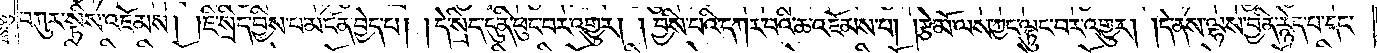བཀུར་སྟིས་འཇོམས། །ཇི་སྲིད་བྱིས་པ་མངོན་བྱེད་པ། །དེ་སྲིད་དུ་ནི་ཕུང་བར་འགྱུར། །བྱིས་པའི་དཀར་བའི་ཆ་འཇོམས་པ། །རྩེ་མོ་ལས་ཀྱང་ལྟུང་བར་འགྱུར། །དེ་ནས་ལྷས་བྱིན་རྙེད་པ་དང་
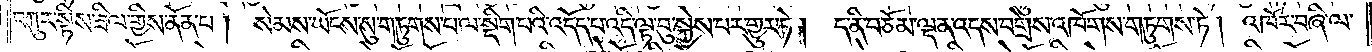བཀུར་སྟིས་ཟིལ་གྱིས་ནོན་པ། སེམས་ཡོངས་སུ་གཏུགས་པ་ལ་སྡིག་པའི་འདོད་པ་འདི་ལྟ་བུ་སྐྱེས་པར་གྱུར་ཏེ། ད་ནི་བཅོམ་ལྡན་འདས་བགྲེས་འཁོགས་གཏུགས་ཏེ། འཁོར་བཞི་ལ་
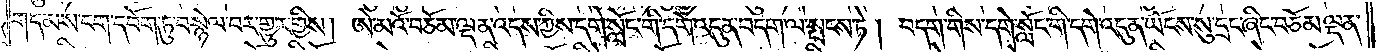གདམས་ངག་དབོག་ཏུ་བསྙེལ་བར་གྱུར་གྱིས། ཨེ་མའོ་བཅོམ་ལྡན་འདས་ཀྱིས་དགེ་སློང་གི་དགེ་འདུན་བདག་ལ་སྤངས་ཏེ། བདག་གིས་དགེ་སློང་གི་དགེ་འདུན་ཡོངས་སུ་དྲང་ཞིང་བཅོམ་ལྡན་
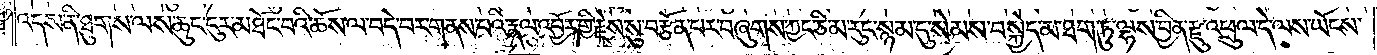འདས་ནི་ཐུགས་ལས་ཆུང་ངུར་མཐོང་བའི་ཆོས་ལ་བདེ་བར་གནས་པའི་རྣལ་འབྱོར་གྱི་རྗེས་སུ་བརྩོན་པར་བཞུགས་ཀྱང་ཅི་མ་རུང་སྙམ་དུ་སེམས་བསྐྱེད་མ་ཐག་ཏུ་ལྷས་བྱིན་རྫུ་འཕྲུལ་དེ་ལས་ཡོངས་
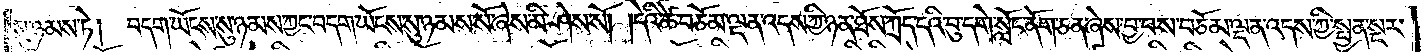སུ་ཉམས་ཏེ། བདག་ཡོངས་སུ་ཉམས་ཀྱང་བདག་ཡོངས་སུ་ཉམས་སོ་ཞེས་མི་ཤེས་སོ། །དེའི་ཚེ་བཅོམ་ལྡན་འདས་ཀྱི་ཉན་ཐོས་ཀྲོད་དའི་བུ་དགེ་སློང་ནོག་ཅན་ཞེས་བྱ་བས་བཅོམ་ལྡན་འདས་ཀྱི་སྤྱན་སྔར་
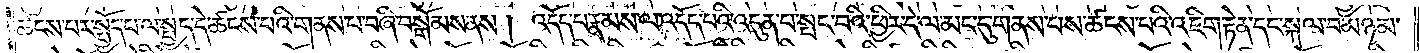ཚངས་པར་སྤྱོད་པ་ལ་སྤྱད་དེ་ཚངས་པའི་གནས་པ་བཞི་བསྒོམས་ནས། འདོད་པ་རྣམས་ལ་འདོད་པའི་འདུན་པ་སྤང་བའི་ཕྱིར་དེ་ལ་མང་དུ་གནས་པས་ཚངས་པའི་འཇིག་རྟེན་དང་སྐལ་བ་མཉམ་
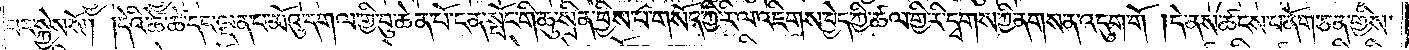པར་སྐྱེས་སོ། །དེའི་ཚེ་ཚེ་དང་ལྡན་པ་མོའུ་དགལ་གྱི་བུ་ཆེན་པོ་ངན་སྤོང་གི་ཆུ་སྲིན་བྱིས་པ་གསོད་ཀྱི་རི་ལ་འཇིགས་བྱེད་ཀྱི་ཚལ་གྱི་རི་དྭགས་ཀྱི་ནགས་ན་འདུག་གོ །དེ་ནས་ཚངས་པ་ནོག་ཅན་གྱིས་
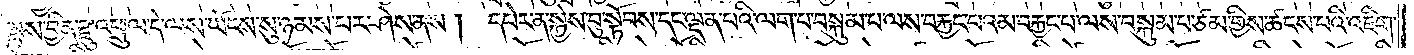ལྷས་བྱིན་རྫུ་འཕྲུལ་དེ་ལས་ཡོངས་སུ་ཉམས་པར་ཤེས་ནས། དཔེར་ན་སྐྱེས་བུ་སྟོབས་དང་ལྡན་པའི་ལག་པ་བསྐུམ་པ་ལས་བརྐྱང་པའམ་བརྐྱང་བ་ལས་བསྐུམ་པ་ཙམ་གྱིས་ཚངས་པའི་འཇིག་
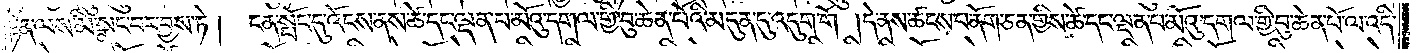རྟེན་ལས་མི་སྣང་བར་བྱས་ཏེ། ངན་སྤོང་དུ་འོངས་ནས་ཚེ་དང་ལྡན་པ་མོའུ་དགལ་གྱི་བུ་ཆེན་པོའི་མདུན་དུ་འདུག་གོ །དེ་ནས་ཚངས་པ་ནོག་ཅན་གྱིས་ཚེ་དང་ལྡན་པ་མོའུ་དགལ་གྱི་བུ་ཆེན་པོ་ལ་འདི་
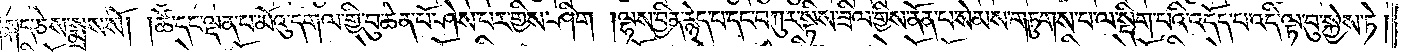སྐད་ཅེས་སྨྲས་སོ། །ཚེ་དང་ལྡན་པ་མོའུ་དགལ་གྱི་བུ་ཆེན་པོ་ཤེས་པར་གྱིས་ཤིག །ལྷས་བྱིན་རྙེད་པ་དང་བཀུར་སྟིས་ཟིལ་གྱིས་ནོན་པ་སེམས་གཏུགས་པ་ལ་སྡིག་པའི་འདོད་པ་འདི་ལྟ་བུ་སྐྱེས་ཏེ།
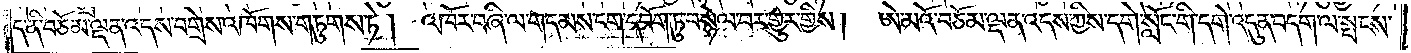ད་ནི་བཅོམ་ལྡན་འདས་བགྲེས་འཁོགས་གཏུགས་ཏེ། འཁོར་བཞི་ལ་གདམས་ངག་དབོག་ཏུ་བསྙེལ་བར་གྱུར་གྱིས།  ཨེ་མའོ་བཅོམ་ལྡན་འདས་ཀྱིས་དགེ་སློང་གི་དགེ་འདུན་བདག་ལ་སྤངས་
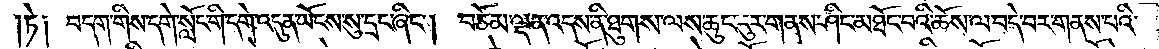།ཏེ༑ བདག་གིས་དགེ་སློང་གི་དགེ་འདུན་ཡོངས་སུ་དྲང་ཞིང༌། བཅོམ་ལྡན་འདས་ནི་ཐུགས་ལས་ཆུང་ངུར་གནས་ཤིང་མཐོང་བའི་ཆོས་ལ་བདེ་བར་གནས་པའི་
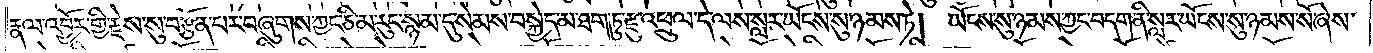རྣལ་འབྱོར་གྱི་རྗེས་སུ་བརྩོན་པར་བཞུགས་ཀྱང་ཅི་མ་རུང་སྙམ་དུ་སེམས་བསྐྱེད་མ་ཐག་ཏུ་རྫུ་འཕྲུལ་དེ་ལས་སླར་ཡོངས་སུ་ཉམས་ཏེ། ཡོངས་སུ་ཉམས་ཀྱང་བདག་ནི་སླར་ཡོངས་སུ་ཉམས་སོ་ཞེས་
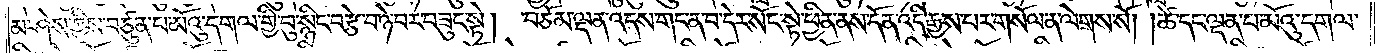མ་ཤེས་ཀྱིས་བཙུན་པ་མོའུ་དགལ་གྱི་བུ་སྙིང་བརྩེ་བ་ཉེ་བར་བཟུང་སྟེ། བཅོམ་ལྡན་འདས་གང་ན་བ་དེར་སོང་སྟེ་ཕྱིན་ནས་དོན་འདི་རྒྱས་པར་གསོལ་ན་ལེགས་སོ། །ཚེ་དང་ལྡན་པ་མོའུ་དགལ་
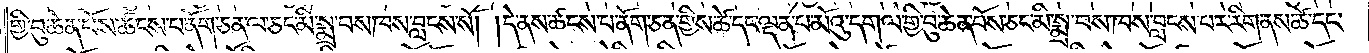གྱི་བུ་ཆེན་པོས་ཚངས་པ་ནོག་ཅན་ལ་ཅང་མི་སྨྲ་བས་ཁས་བླངས་སོ། །དེ་ནས་ཚངས་པ་ནོག་ཅན་གྱིས་ཚེ་དང་ལྡན་པ་མོའུ་དགལ་གྱི་བུ་ཆེན་པོས་ཅང་མི་སྨྲ་བས་ཁས་བླངས་པར་རིག་ནས་ཚེ་དང་
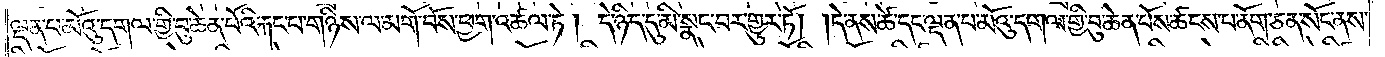ལྡན་པ་མོའུ་དགལ་གྱི་བུ་ཆེན་པོའི་རྐང་པ་གཉིས་ལ་མགོ་བོས་ཕྱག་འཚལ་ཏེ། དེ་ཉིད་དུ་མི་སྣང་བར་གྱུར་ཏོ། །དེ་ནས་ཚེ་དང་ལྡན་པ་མོའུ་དགལ་གྱི་བུ་ཆེན་པོས་ཚངས་པ་ནོག་ཅན་སོང་ནས་
